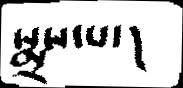སྨྲས་པ་།
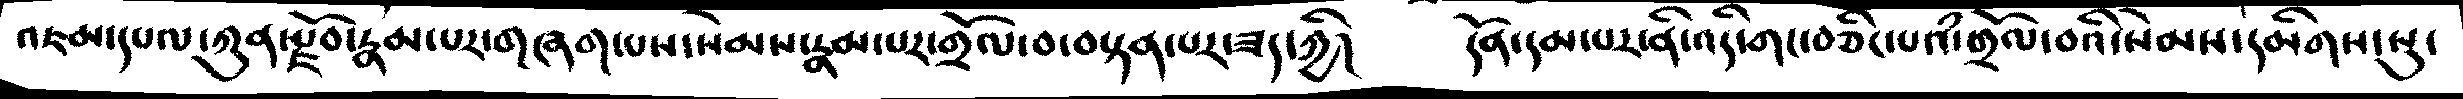འཇམ་དཔལ་ཀུན་རྫོབ་རྣམ་པར་གཞག་པས་སེམས་རྣམ་པར་གྲོལ་བ་བསྟན་པར་ཟད་ཀྱི།   དོན་དམ་པར་ནི་འདི་གང་བཅིང་པའི་གྲོལ་བའི་སེམས་དམིགས་སུ་
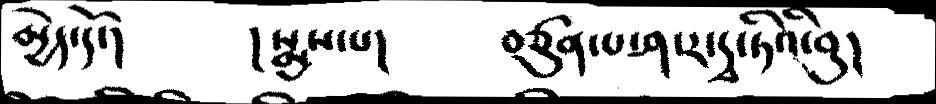མྱེད་དོ་།    །སྨྲས་པ།   བཙུན་པ་ཤ་ར་དྭ་ཏིའི་བུ།
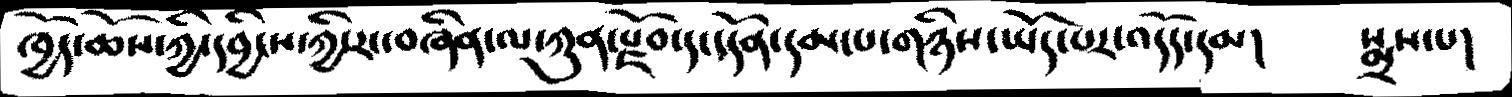ཁྱོད་ཆོས་ཀྱི་དབྱིངས་ཀྱི་རང་བཞིན་ལ་ཀུན་རྫོབ་དང་དོན་དམ་པ་གཉིས་ཡོད་པར་འདོད་དམ།   སྨྲས་པ།
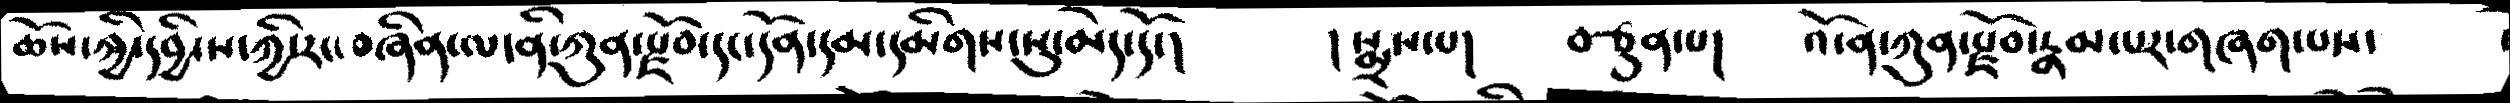ཆོས་ཀྱི་དབྱིངས་ཀྱི་རང་བཞིན་ལ་ནི་ཀུན་རྫོབ་དང་དོན་དམ་དམིགས་སུ་མེད་དོ་།  །སྨྲས་པ།  བཙུན་པ།   འོ་ན་ཀུན་རྫོབ་རྣམ་པར་གཞག་པས་
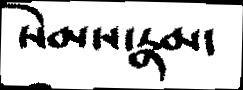སེམས་རྣམ་
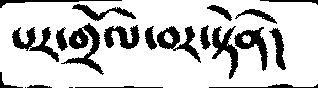པར་གྲོལ་བར་སྟོན།
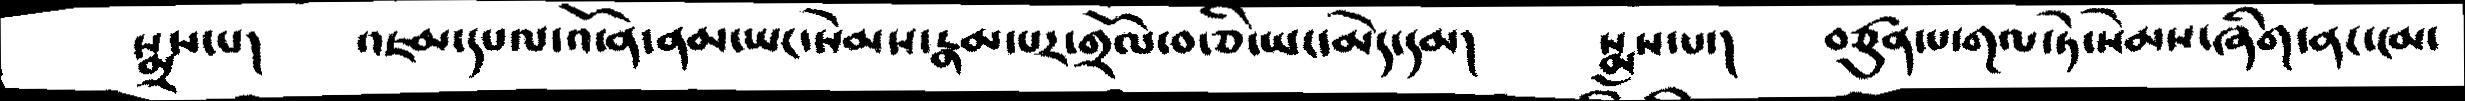སྨྲས་པ།   འཇམ་དཔལ་འོ་ན་ནམ་ཡང་སེམས་རྣམ་པར་གྲོལ་བ་ཅི་ཡང་མེད་དམ།  སྨྲས་པ་།  བཙུན་པ་གལ་ཏེ་སེམས་ཞིག་ནང་ངམ་
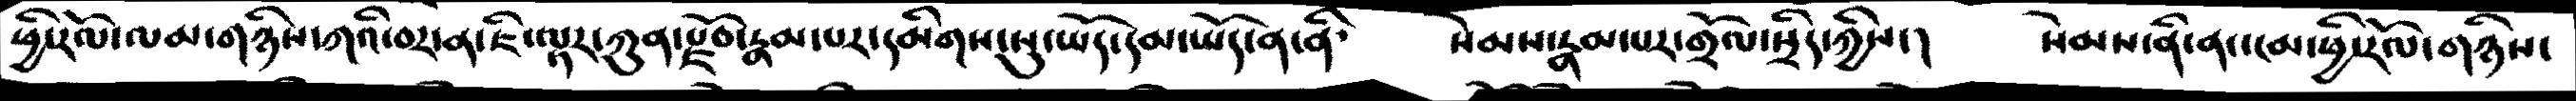ཕྱི་རོལ་ལམ་གཉིས་ཀའི་བར་ན་ཇི་ལྟར་ཀུན་རྫོབ་རྣམ་པར་དམིགས་སུ་ཡོད་དམ་ཡོད་ན་ནི་   སེམས་རྣམ་པར་གྲོལ་སྲིད་ཀྱིས་།   སེམས་ནི་ནང་ངམ་ཕྱི་རོལ་གཉིས་
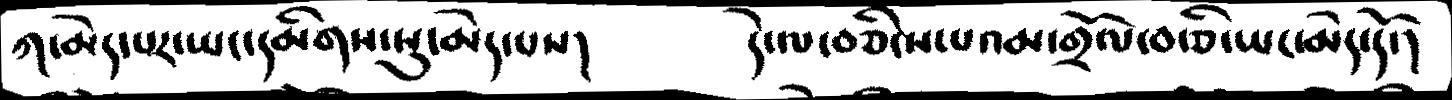ཀ་མེད་པར་ཡང་དམིགས་སུ་མེད་པས།  དེ་ལ་བཅིངས་པའམ་གྲོལ་བ་ཅི་ཡང་མེད་དོ་།
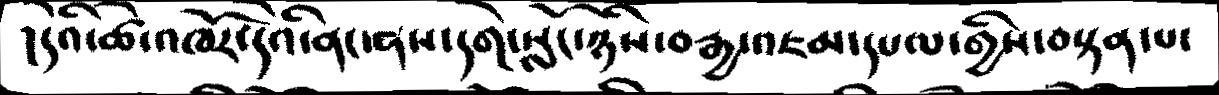།དེའི་ཚེ་འཁོར་དེའི་ནང་ནས་དགེ་སློང་ཉིས་བརྒྱ་འཇམ་དཔལ་གྱིས་བསྟན་པ་
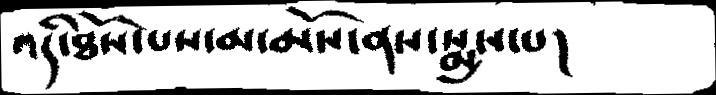འདི་ཐོས་པས་མ་མོས་ནས་སྨྲས་པ།
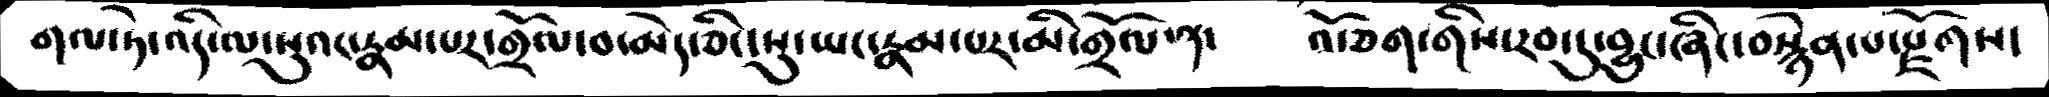གལ་ཏེ་འདི་ལ་སུའང་རྣམ་པར་གྲོལ་བ་མེད་ཅིང་སུ་ཡང་རྣམ་པར་མི་གྲོལ་ན་    འོ་ཅག་གིས་རབ་དུ་བྱུང་ཞིང་བསྙེན་པ་རྫོགས་
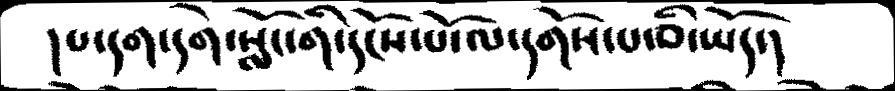།པ་དག་དགེ་སློང་གི་དངོས་པོ་ལ་དགོས་པ་ཅི་ཡོད་།
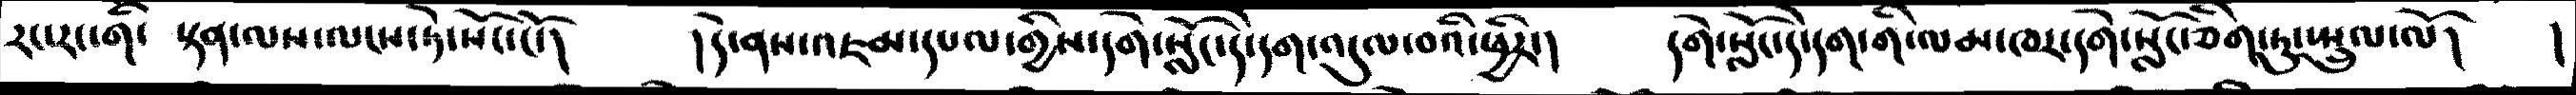རང་རང་གི་   སྟན་ལས་ལངས་ཏེ་པོང་ངོ་།    དེ་ནས་འཇམ་དཔལ་གྱིས་དགེ་སློང་དེ་དག་འདུན་བའི་ཕྱིར་།  དགེ་སློང་དེ་དག་གི་ལམ་ཁར་དགེ་སློང་ཅིག་ཏུ་སྤྲུལ་ལོ།   །
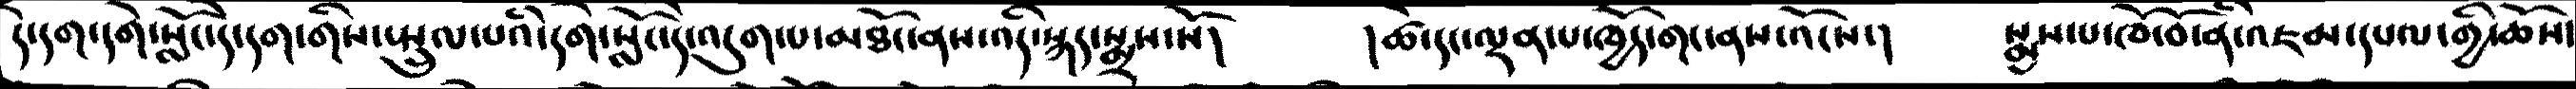དེ་དག་དགེ་སློང་དེ་དག་གིས་སྤྲུལ་པའི་དགེ་སློང་དེ་འདུག་པ་མཐོང་ནས་འདི་སྐད་སྨྲས་སོ།  །ཚེ་དང་ལྡན་པ་ཁྱོད་གང་ནས་འོངས་།  སྨྲས་པ་ཁོ་བོ་ནི་འཇམ་དཔལ་གྱི་ཆོས་
